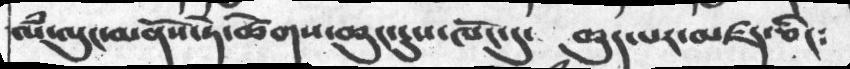ལཾ་ལུང་མནཔོས་ཏེ་ཚེགས་ཆུང་ངུས་ཁོང་དུ་  ཆུད་པར་མཛད་ཅིང༴
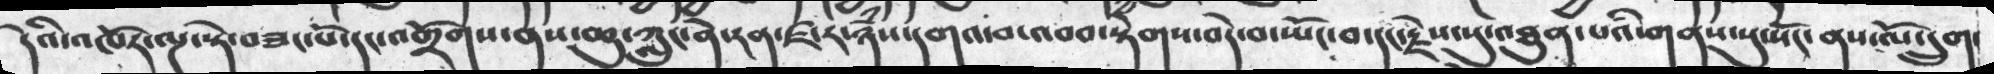དེའི་འཁོར་ལྔ་སྟེ་བཟང་པོ་དང་འགྲོགས་ནས་ཆུ་ཀླུང་ནེ་རན་ཛ་ར་ཉཾས་དགའ་བ་འབབ་སྟེགས་བདེ་བ་སྤོང་བ་དང་རྗེས་སུ་འཐུན་པའི་གནས་སུ་སོང་ནས་ལོ་དྲུག་
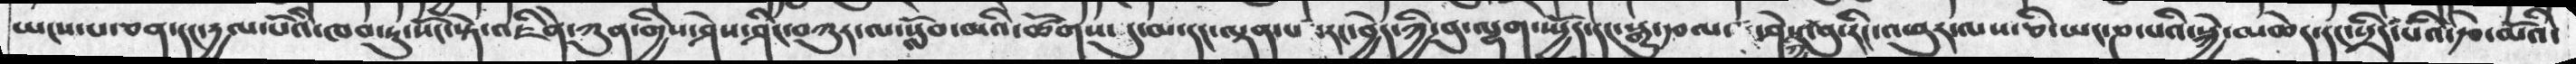ཡངས་པ་ཅན་དང་དྱལ་པོའི་ཁབ་ཏུ་སོང་སྟེ་འཇིེན་ཀུན་གྱིས་ཤེས་ཤིང་བཀུར་ལ་སློབ་མའི་ཚོགས་དུ་མ་དང་ལྡན་པ་རང་བྱེད་ཀྱི་བུ་ལྷག་སྤྱོད་དང་སྒྱུ་རྩལ་ཤེས་ཀྱི་བུ་རིང་འཕུར་ལས་ཅི་ཡང་ཎ་པའི་སྐྱེ་མཆེད་དང་སྲིད་པའི་རྩེ་མོའི་
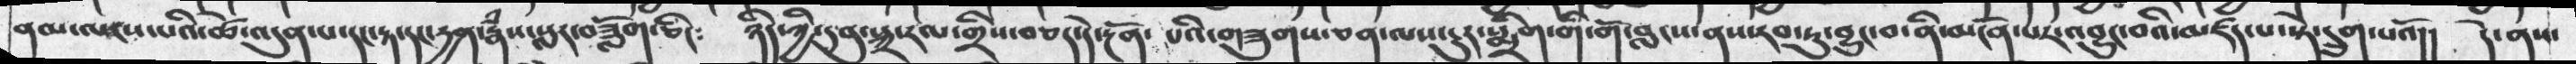ནམ་ལངས་པའི་ཚེ་འདུན་པ་དང་རྟ་དང་དྱན་རྣཾས་སླར་བཟློག་ཅིང༴  ཉིད་ཀྱི་དབུ་སྐྲ་རལ་གྲིས་བཅད་དེ་རྔོན་ པའི་གཟུགས་ཅན་ལས་ངུར་སྨྲིག་གི་གོ་བླངས་ནས་རབ་ཏུ་བྱུང་བ་ནི་མངོན་པར་འབྱུང་བའི་མཛད་པ་སྟེ་དྲུག་པའོ།།  དེ་ནས་
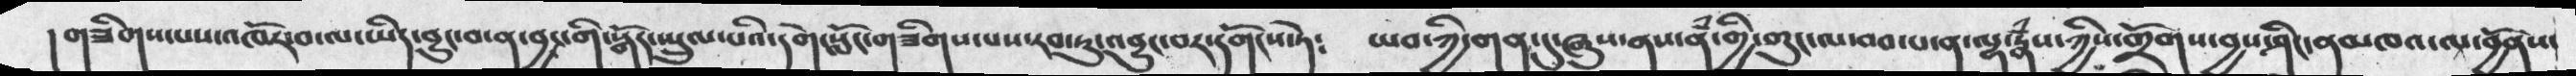།གཟིགས་པས་འཁོར་བ་ལ་ཡིད་བྱུང་བ་ན་བྱང་གི་སྒོད་སྤྲུལ་པའི་དགེ་སློང་གཟིགས་པས་རབ་ཏུ་འབྱུང་བར་དགོངས་ཏེ༴  ཡབ་ཀྱི་གན་དུ་ཞུས་ནས་ནཾ་གྱི་གུང་ལ་བབ་པ་ན་ལྷ་རྣཾས་ཀྱིས་གྲོགས་བྱས་ཤིང་ནམཁའ་ལ་བྱོནས་
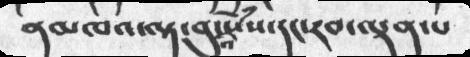ནམཁའ་ལྟ་བུའི་སེཾས་དང་རབ་ལྡན་པ
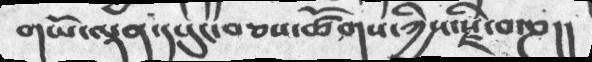གཡོ་ལྡན་དཔུང་བཅས་ཚོགས་ཀྱིས་སྗི་བ་ཎ།།
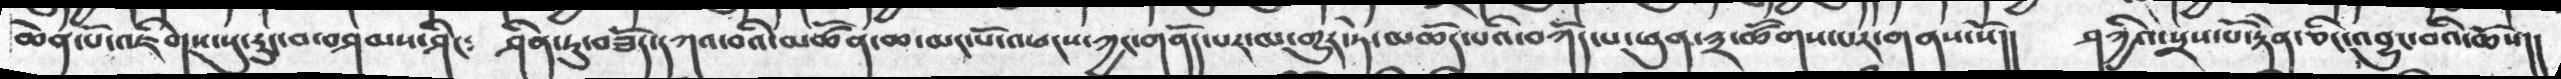ཆེན་པོ་འཇིགས་སུ་རུང་བ་བཤམས་ཤིང༴   ཤིན་ཏུ་བཟོད་དཀའ་བའི་མཚོན་ཆ་མང་པོ་འཕངས་ཀྱང་གནོད་པར་མ་གྱུར་ཏེ་མཆོད་པའི་བཀོད་པ་ཕུན་༣་ཚོགས་པར་གནས་སོ།།  ཤཀྱའི་སྲས་པོ་རྟེན་ཅིང་འབྱུང་བའི་ཆོས།།
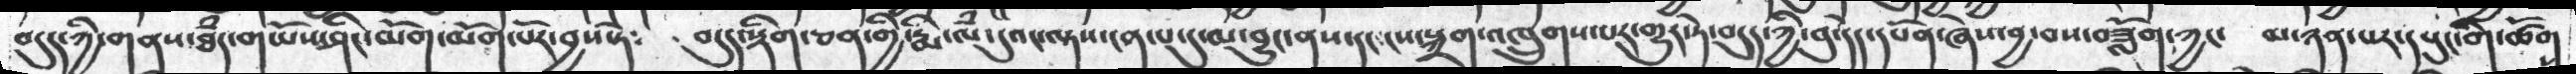བདུད་ཀྱི་གནས་ཐཾད་གཡོས་ཤིང་མོག་མོག་པོར་བྱས་སྟེ༴   བདུད་སྡིག་ཅན་གྱི་རྣི་ལཾ་དུའང་ལྟས་ངན་པ་དུ་མ་བྱུང་ནས་དང་ངས་སྐྲག་འཁྲུགས་པར་གྱུར་ཏེ་བདུད་ཀྱི་བུ་དེད་དཔོན་ཞེས་བྱ་བས་བཟློག་ཀྱང་   མ་ཉན་པར་དཔུང་གི་ཚོགས
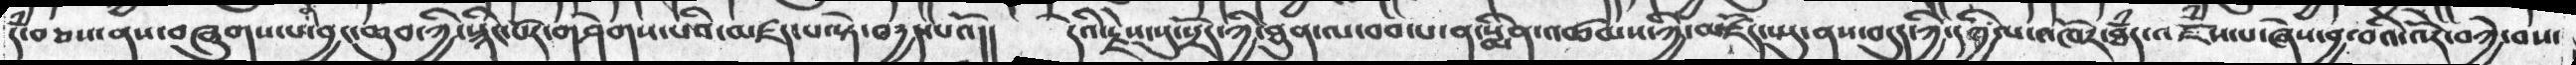དཾ་བཅས་ནས་བཞུགས་པ་བྱང་ཆུབ་ཀྱི་སྙིང་པོར་གཤེགས་པའི་མཛད་པ་སྟེ་བདྱད་པའོ།།    དེའི་རྗེས་སུ་སྲོད་ཀྱི་ཐུན་ལ་བབ་པ་ན་སྨིན་འཚམས་ཀྱི་མཛོད་སྤུ་ནས་བདུད་ཀྱི་དཀྱིལ་འཁོར་ཐཾད་འཇོཾས་པ་ཞེས་བྱ་བའི་འོད་བཀྱེ་བས་
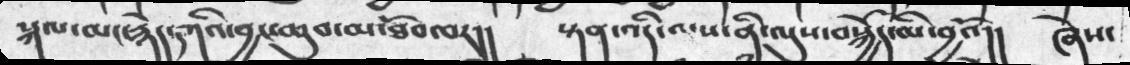སྐལ་མང་རྙེད་དཀའི་བྱང་ཆུབ་མ་ཐོབ་པར།།   སྟན་འདི་ལས་ནི་ལུས་བསྐྱེད་མི་བྱའོ།།  ཞེས་
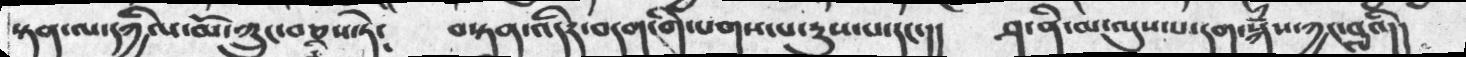སྟན་ལ་དཀྱིལ་མོ་ཀྲུང་བཅས་ཏེ༴  བསྟན་འདིར་བདག་གི་པགས་པ་རུས་པ་དང་།།  ཤ་ནི་མ་ལུས་པ་དག་སྐཾས་ཀྱང་བླའི།།
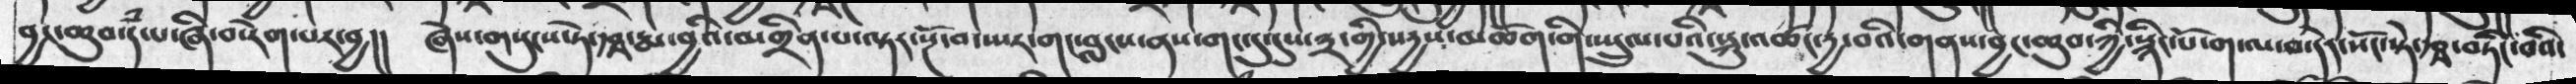བྱང་ཆུབ་དཾ་པ་ཞི་བ་རེ་པར་བྱ།།  ཞེས་གསུངས་ཏེ་རྩྭ་རྨ་བྱའི་མགྲིན་པ་ལྟར་སྔོ་བ་སྤར་གང་བླངས་ནས་གང་དུ་དུས་༣་གྱི་སདྱས་མཆོག་གི་སྤྲུལ་པའི་སྐུ་འཚང་དྱ་བའི་གནས་བྱང་ཆུབ་ཀྱི་སྙིང་པོ་ག་ལ་བ་དེར་སོང་སྟེ་རྩྭ་བཏིང་བའི་
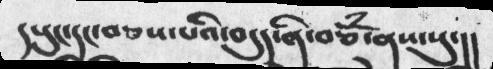དཔུང་དང་བཅས་པའི་བདུད་ནི་བཅོཾ་ནས་སུ་།།
